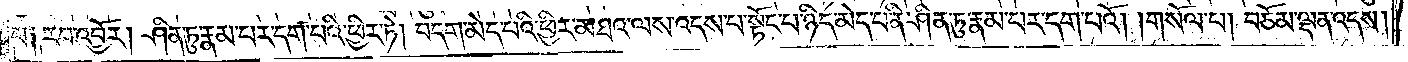པ༑ རབ་འབྱོར། ཤིན་ཏུ་རྣམ་པར་དག་པའི་ཕྱིར་ཏེ། བདག་མེད་པའི་ཕྱིར་མཐའ་ལས་འདས་པ་སྟོང་པ་ཉིད་མེད་པ་ནི་ཤིན་ཏུ་རྣམ་པར་དག་པའོ། །གསོལ་པ། བཅོམ་ལྡན་འདས།
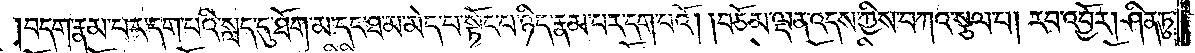བདག་རྣམ་པར་དག་པའི་སླད་དུ་ཐོག་མ་དང་ཐ་མ་མེད་པ་སྟོང་པ་ཉིད་རྣམ་པར་དག་པའོ། །བཅོམ་ལྡན་འདས་ཀྱིས་བཀའ་སྩལ་པ། རབ་འབྱོར། ཤིན་ཏུ་
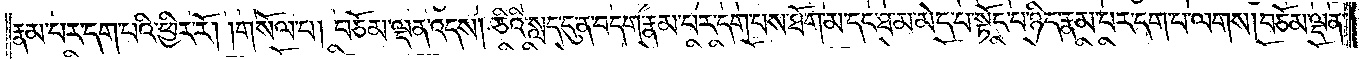རྣམ་པར་དག་པའི་ཕྱིར་རོ། །གསོལ་པ། བཅོམ་ལྡན་འདས། ཅིའི་སླད་དུ་ན་བདག་རྣམ་པར་དག་པས། ཐོག་མ་དང་ཐ་མ་མེད་པ་སྟོང་པ་ཉིད་རྣམ་པར་དག་པ་ལགས། བཅོམ་ལྡན་
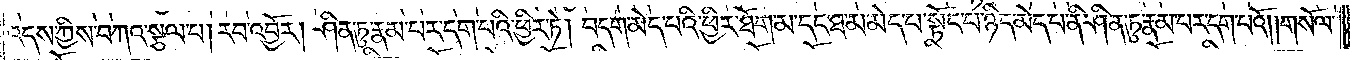འདས་ཀྱིས་བཀའ་སྩལ་པ། རབ་འབྱོར། ཤིན་ཏུ་རྣམ་པར་དག་པའི་ཕྱིར་ཏེ། བདག་མེད་པའི་ཕྱིར་ཐོག་མ་དང་ཐ་མ་མེད་པ་སྟོང་པ་ཉིད་མེད་པ་ནི་ཤིན་ཏུ་རྣམ་པར་དག་པའོ། །གསོལ་
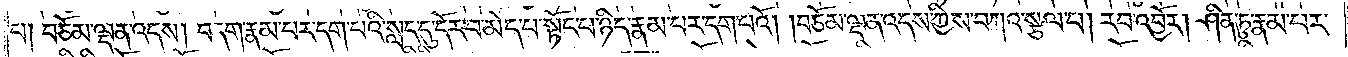པ། བཅོམ་ལྡན་འདས། བདག་རྣམ་པར་དག་པའི་སླད་དུ་དོར་བ་མེད་པ་སྟོང་པ་ཉིད་རྣམ་པར་དག་པའོ། །བཅོམ་ལྡན་འདས་ཀྱིས་བཀའ་སྩལ་པ། རབ་འབྱོར། ཤིན་ཏུ་རྣམ་པར་
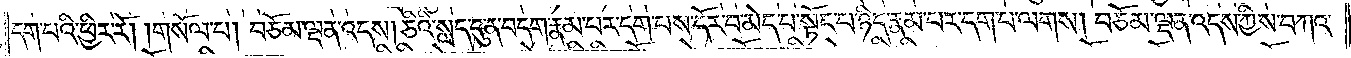དག་པའི་ཕྱིར་རོ། །གསོལ་པ། བཅོམ་ལྡན་འདས། ཅིའི་སླད་དུ་ན་བདག་རྣམ་པར་དག་པས་དོར་བ་མེད་པ་སྟོང་པ་ཉིད་རྣམ་པར་དག་པ་ལགས། བཅོམ་ལྡན་འདས་ཀྱིས་བཀའ་
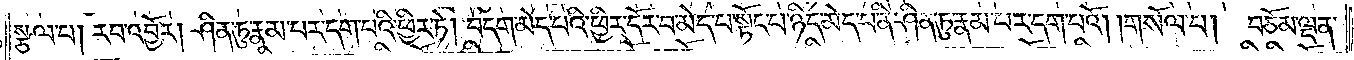སྩལ་པ། རབ་འབྱོར། ཤིན་ཏུ་རྣམ་པར་དག་པའི་ཕྱིར་ཏེ། བདག་མེད་པའི་ཕྱིར་དོར་བ་མེད་པ་སྟོང་པ་ཉིད་མེད་པ་ནི་ཤིན་ཏུ་རྣམ་པར་དག་པའོ། །གསོལ་པ། བཅོམ་ལྡན་
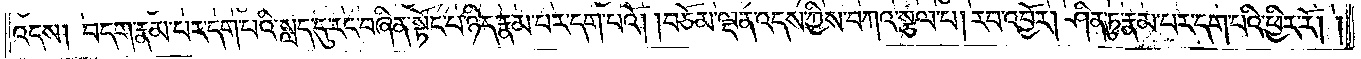འདས། བདག་རྣམ་པར་དག་པའི་སླད་དུ་རང་བཞིན་སྟོང་པ་ཉིད་རྣམ་པར་དག་པའོ། །བཅོམ་ལྡན་འདས་ཀྱིས་བཀའ་སྩལ་པ། རབ་འབྱོར། ཤིན་ཏུ་རྣམ་པར་དག་པའི་ཕྱིར་རོ༎
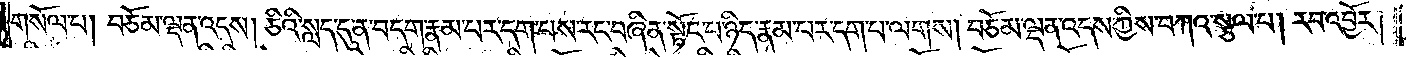གསོལ་པ། བཅོམ་ལྡན་འདས། ཅིའི་སླད་དུ་ན་བདག་རྣམ་པར་དག་པས་རང་བཞིན་སྟོང་པ་ཉིད་རྣམ་པར་དག་པ་ལགས། བཅོམ་ལྡན་འདས་ཀྱིས་བཀའ་སྩལ་པ། རབ་འབྱོར།
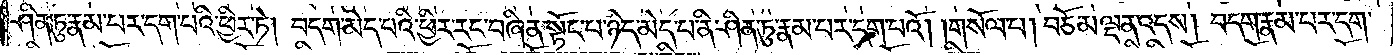ཤིན་ཏུ་རྣམ་པར་དག་པའི་ཕྱིར་ཏེ། བདག་མེད་པའི་ཕྱིར་རང་བཞིན་སྟོང་པ་ཉིད་མེད་པ་ནི་ཤིན་ཏུ་རྣམ་པར་དག་པའོ། །གསོལ་པ། བཅོམ་ལྡན་འདས། བདག་རྣམ་པར་དག་
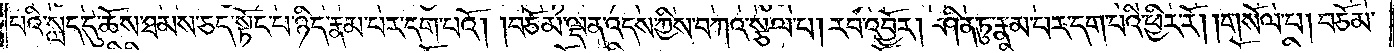པའི་སླད་དུ་ཆོས་ཐམས་ཅད་སྟོང་པ་ཉིད་རྣམ་པར་དག་པའོ། །བཅོམ་ལྡན་འདས་ཀྱིས་བཀའ་སྩལ་པ། རབ་འབྱོར། ཤིན་ཏུ་རྣམ་པར་དག་པའི་ཕྱིར་རོ། །གསོལ་པ། བཅོམ་
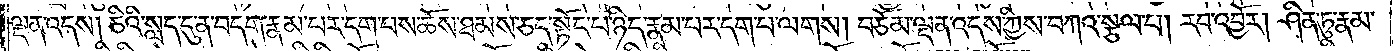ལྡན་འདས། ཅིའི་སླད་དུ་ན་བདག་རྣམ་པར་དག་པས་ཆོས་ཐམས་ཅད་སྟོང་པ་ཉིད་རྣམ་པར་དག་པ་ལགས། བཅོམ་ལྡན་འདས་ཀྱིས་བཀའ་སྩལ་པ། རབ་འབྱོར། ཤིན་ཏུ་རྣམ་
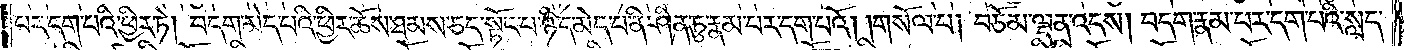པར་དག་པའི་ཕྱིར་ཏེ། བདག་མེད་པའི་ཕྱིར་ཆོས་ཐམས་ཅད་སྟོང་པ་ཉིད་མེད་པ་ནི་ཤིན་ཏུ་རྣམ་པར་དག་པའོ། །གསོལ་པ། བཅོམ་ལྡན་འདས། བདག་རྣམ་པར་དག་པའི་སླད་
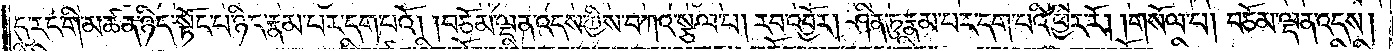དུ་རང་གི་མཚན་ཉིད་སྟོང་པ་ཉིད་རྣམ་པར་དག་པའོ། །བཅོམ་ལྡན་འདས་ཀྱིས་བཀའ་སྩལ་པ། རབ་འབྱོར། ཤིན་ཏུ་རྣམ་པར་དག་པའི་ཕྱིར་རོ། །གསོལ་པ། བཅོམ་ལྡན་འདས།
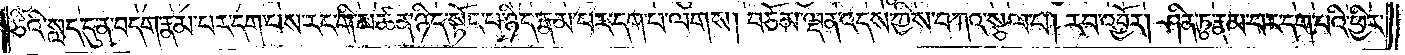ཅིའི་སླད་དུ་ན་བདག་རྣམ་པར་དག་པས་རང་གི་མཚན་ཉིད་སྟོང་པ་ཉིད་རྣམ་པར་དག་པ་ལགས། བཅོམ་ལྡན་འདས་ཀྱིས་བཀའ་སྩལ་པ། རབ་འབྱོར། ཤིན་ཏུ་རྣམ་པར་དག་པའི་ཕྱིར་
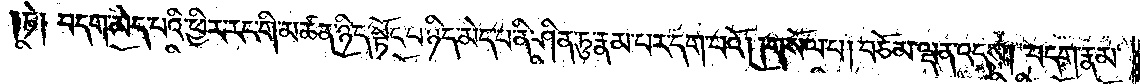ཏེ། བདག་མེད་པའི་ཕྱིར་རང་གི་མཚན་ཉིད་སྟོང་པ་ཉིད་མེད་པ་ནི་ཤིན་ཏུ་རྣམ་པར་དག་པའོ། །གསོལ་པ། བཅོམ་ལྡན་འདས། བདག་རྣམ་
